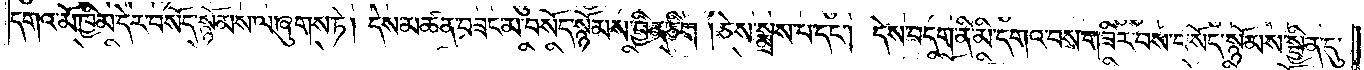དགའ་མོ་ཁྱིམ་དེར་བསོད་སྙོམས་ལ་ཞུགས་ཏེ། དེས་མཚན་བཟང་མ་བསོད་སྙོམས་བྱིན་ཅིག །ཅེས་སྨྲས་པ་དང༌། དེས་བདག་ནི་མི་དགའ་བས་གཟིར་བས་བསོད་སྙོམས་སྦྱིན་དུ་
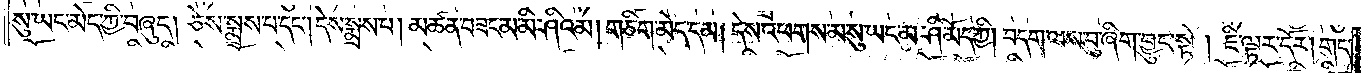སུ་ཡང་མེད་ཀྱི་བཞུད། ཅེས་སྨྲས་པ་དང༌། དེས་སྨྲས་པ། མཚན་བཟང་མ་མི་ཤིའམ། གཅིག་མེད་དམ། དེས་འཕགས་མ་སུ་ཡང་མ་ཤི་མོད་ཀྱི། བདག་ལས་བུ་ཞིག་བྱུང་སྟེ། ཇི་ལྟར་དོར། གང་
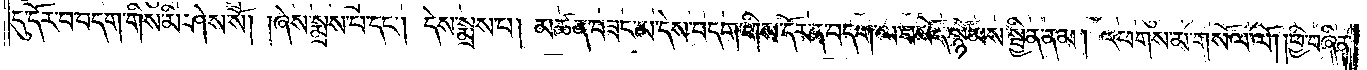དུ་དོར་བ་བདག་གིས་མི་ཤེས་སོ། །ཞེས་སྨྲས་པ་དང༌། དེས་སྨྲས་པ། མཚན་བཟང་མ་དེས་བདག་གིས་དོར་ན་བདག་ལ་བསོད་སྙོམས་སྦྱིན་ནམ། འཕགས་མ་གསོལ་ལོ། །ཕྱི་བཞིན་
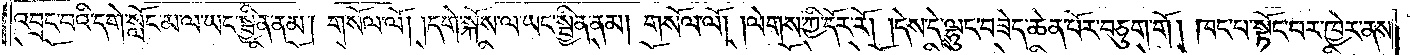འབྲང་བའི་དགེ་སློང་མ་ལ་ཡང་སྦྱིན་ནམ། གསོལ་ལོ། །དགེ་སྐོས་ལ་ཡང་སྦྱིན་ནམ། གསོལ་ལོ། །ལེགས་ཀྱི་དོར་རོ། །དེས་དེ་ལྷུང་བཟེད་ཆེན་པོར་བཅུག་གོ། ཁང་པ་སྟོང་པར་ཁྱེར་ནས་
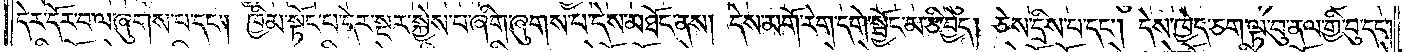དེར་དོར་བ་ལ་ཞུགས་པ་དང༌། ཁྱིམ་སྟོང་པ་དེར་སྔར་སྐྱེས་པ་ཞིག་ཞུགས་པ་དེས་མཐོང་ནས། དེས་མགོ་རེག་དགེ་སྦྱོང་མ་ཅི་བྱེད། ཅེས་དྲིས་པ་དང༌། དེས་ཁྱེད་ཅག་ལྟ་བུ་ནལ་གྱི་བུ་དང༌།
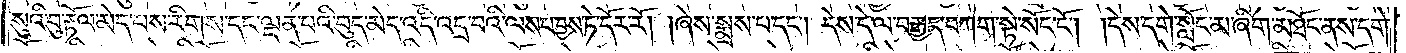སུའི་བུ་རྟོལ་མེད་པས་རིགས་དང་ལྡན་པའི་བུད་མེད་འདི་འདྲ་བའི་ལས་པ་བྱས་ཏེ་དོར་རོ། །ཞེས་སྨྲས་པ་དང༌། དེས་དེ་ལ་བརྒྱད་བཀག་སྟེ་སོང་ངོ༌། །དེས་དགེ་སློང་མ་ཞིག་མཐོང་ནས་དགེ་
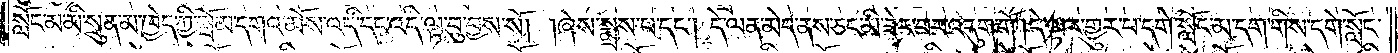སློང་མ་མི་སྲུན་མ་ཁྱེད་ཀྱི་སྦོམ་དགའ་མོས་འདི་དང་འདི་ལྟ་བུ་བྱས་སོ། །ཞེས་སྨྲས་པ་དང༌། དེ་ལན་མེད་ནས་ཅང་མི་ཟེར་བར་འདུག་གོ །དེ་ལྟར་གྱུར་པ་དགེ་སློང་མ་དག་གིས་དགེ་སློང་
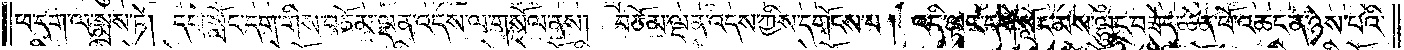ཕ་དག་ལ་སྨྲས་ཏེ། དགེ་སློང་དག་གིས་བཅོམ་ལྡན་འདས་ལ་གསོལ་ནས། བཅོམ་ལྡན་འདས་ཀྱིས་དགོངས་པ། འདི་ལྟར་དགེ་སློང་མས་ལྷུང་བཟེད་ཆེན་པོ་འཆང་ན་ཉེས་པའི་
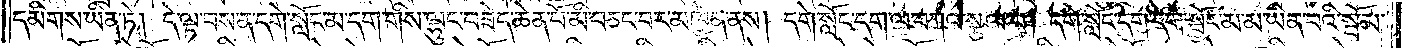དམིགས་ཡིན་ཏེ། དེ་ལྟ་བས་ན་དགེ་སློང་མ་དག་གིས་ལྷུང་བཟེད་ཆེན་པོ་མི་བཅང་བར་མཁྱེན་ནས། དགེ་སློང་དག་ལ་བཀའ་སྩལ་པ། དགེ་སློང་དག་དགེ་སྦྱོང་མ་ཡིན་པའི་སྦོམ་
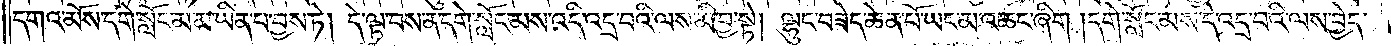དགའ་མོས་དགེ་སློང་མ་མ་ཡིན་པ་བྱས་ཏེ། དེ་ལྟ་བས་ན་དགེ་སློང་མས་འདི་འདྲ་བའི་ལས་མི་བྱ་སྟེ། ལྷུང་བཟེད་ཆེན་པོ་ཡང་མ་འཆང་ཞིག །དགེ་སློང་མས་དེ་འདྲ་བའི་ལས་བྱེད་
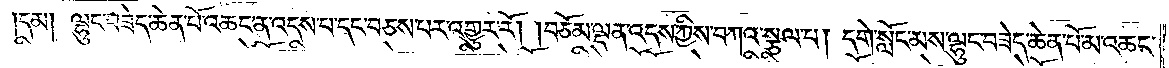དམ། ལྷུང་བཟེད་ཆེན་པོ་འཆང་ན་འདས་པ་དང་བཅས་པར་འགྱུར་རོ། །བཅོམ་ལྡན་འདས་ཀྱིས་བཀའ་སྩལ་པ། དགེ་སློང་མས་ལྷུང་བཟེད་ཆེན་པོ་མ་འཆང་
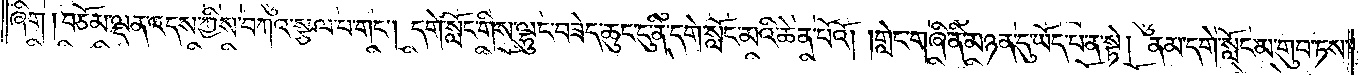ཞིག །བཅོམ་ལྡན་འདས་ཀྱིས་བཀའ་སྩལ་པ་གང༌། དགེ་སློང་གིས་ལྷུང་བཟེད་ཆུང་ངུ་ནི་དགེ་སློང་མའི་ཆེན་པོའོ། །གླེང་གཞི་ནི་མཉན་དུ་ཡོད་པ་ན་སྟེ། ནམ་དགེ་སློང་མ་གུབ་ཏས་
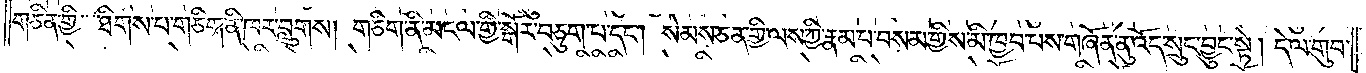གཅིན་གྱི་ཐིགས་པ་གཅིག་ནི་ཁར་བླུགས། གཅིག་ནི་མངལ་གྱི་སྒོར་བཅུག་པ་དང༌། སེམས་ཅན་གྱི་ལས་ཀྱི་རྣམ་པ་བསམ་གྱིས་མི་ཁྱབ་པས་གཞོན་ནུ་འོད་སྲུང་བྱུང་སྟེ། དེ་ལ་གུབ་
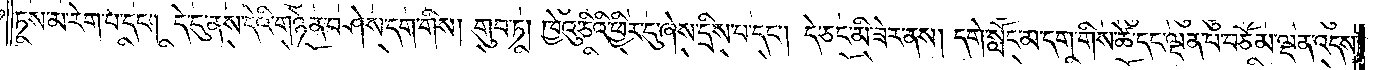ཏས་མ་རེག་པ་དང༌། དེ་དུ་ནས་དེའི་གཉེན་བཤེས་དག་གིས། གུབ་ཏ། ཁྱེའུ་ཅིའི་ཕྱིར་དུ་ཞེས་དྲིས་པ་དང༌། དེ་ཅང་མི་ཟེར་ནས། དགེ་སློང་མ་དག་གིས་ཚེ་དང་ལྡན་པ་བཅོམ་ལྡན་འདས་
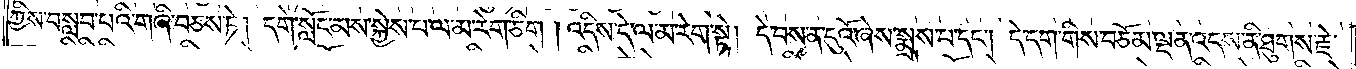ཀྱིས་བསླབ་པའི་གཞི་བཅས་ཏེ། དགེ་སློང་མས་སྐྱེས་པ་ལ་མ་རེག་ཅིག །འདིས་དེ་ལ་མ་རེག་སྟེ། དེ་བས་ན་དུའོ་ཞེས་སྨྲས་པ་དང༌། དེ་དག་གིས་བཅོམ་ལྡན་འདས་ནི་ཐུགས་རྗེ་
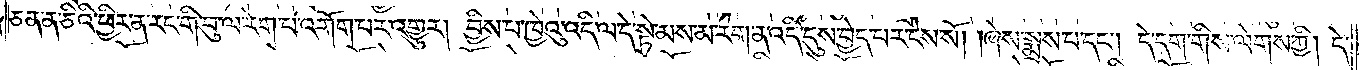ཅན་ན་ཅིའི་ཕྱིར་ན་རང་གི་བུ་ལ་རེག་པ་འགོག་པར་འགྱུར། བྱིས་པ་ཁྱེའུ་འདི་ལ་དེ་སྟེ་མས་མ་རེག་ན་འདི་དུས་བྱེད་པར་ངེས་སོ། །ཞེས་སྨྲས་པ་དང༌། དེ་དག་གིས་ལེགས་ཀྱི། དེ་
